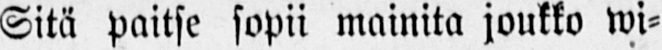Sitä paitsi sopii mainita joukko wi-
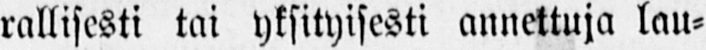rallisesti tai yksityisesti annettuja lau-
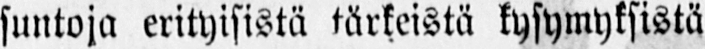suntoja erityisistä tärkeistä kysymyksistä
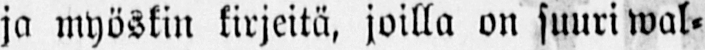ja myöskin kirjeitä, joilla on suuri wal-
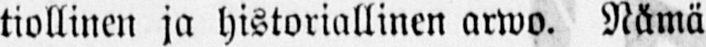tiollinen ja historiallinen arwo. Nämä
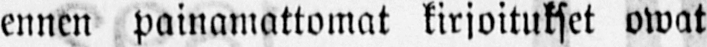ennen painamattomat kirjoitukset owat
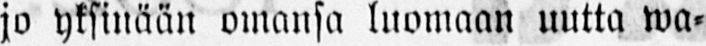jo yksinään omansa luomaan uutta wa-
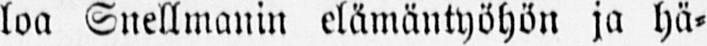loa Snellmanin elämäntyöhön ja hä-
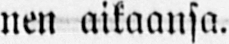nen aikaansa.
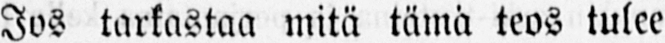Jos tarkastaa mitä tämä teos tulee
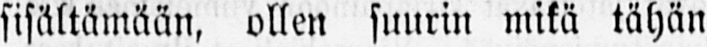sisältämään, ollen suurin mikä tähän
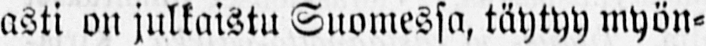asti on julkaistu Suomessa, täytyy myön-
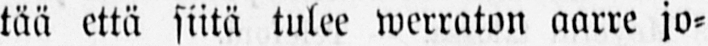tää että siitä tulee werraton aarre jo-
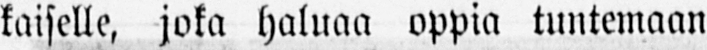kaiselle, joka haluaa oppia tuntemaan
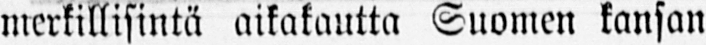merkillisintä aikakautta Suomen kansan
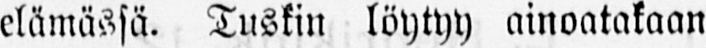elämässä. Tuskin löytyy ainoatakaan
